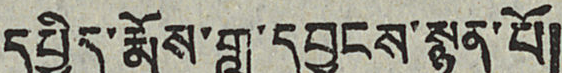དཔྱིད་རྨོས་གླུ་དབྱངས་སྙན་པོ།
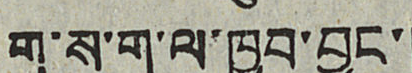ག་ས་ག་ལ་ཁྱབ་བྱུང་།
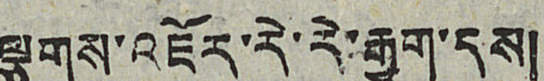ལྕགས་འཇོར་རེ་རེ་རྒྱག་དུས།
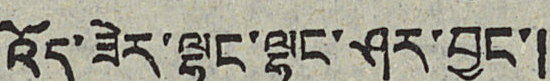འོད་ཟེར་ལྷང་ལྷང་ཤར་བྱུང་།
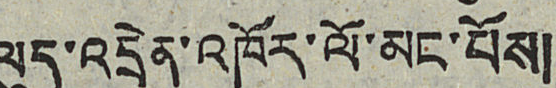ལུད་འདྲེན་འཁོར་ལོ་མང་པོས།
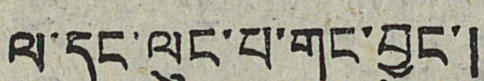ལ་དང་ལུང་པ་གང་བྱུང་།
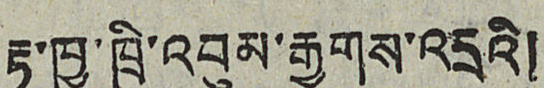རྟ་ཁྱུ་ཁྲི་འབུམ་རྒྱུགས་འདྲའི།
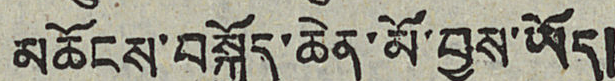མཆོངས་བསྐྱོད་ཆེན་མོ་བྱས་ཡོད།
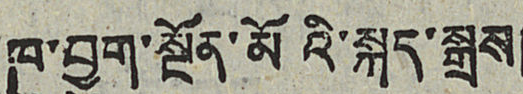ཁུ་བྱུག་སྔོན་མོའི་སྐད་སྒྲས།
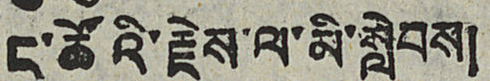ང་ཚོའི་རྗེས་ལ་མི་སླེབས།
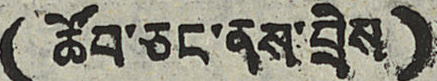(ཚོབ་ཅང་ནས་བྲིས)
